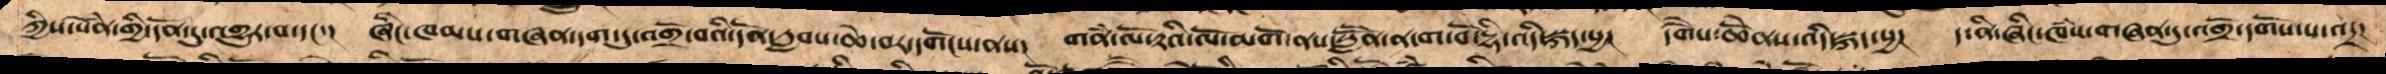ཀྱིས་སེནཾ་གྱི་དོན་དུ་འགྱུར་བ་དང་།   ཞིང་ཁམས་གཞན་དག་ཏུ་འགྲོ་བའི་དོན་རླབས་ཆེ་བར་དགོངས་ནས།  གནཾ་ལོ་རྟའི་ལོ་མགོ་ནས་སླཽན་ན་ག་བོ་ཌྷི་འདི་སྐད་སྱ།  དགཻས་ཆེནོས་འདི་སྐད་སྱ།   ད་ནི་ཞིང་ཁཾས་གཞན་དུ་འགྲོ་དགོས་པ་འདྲ།
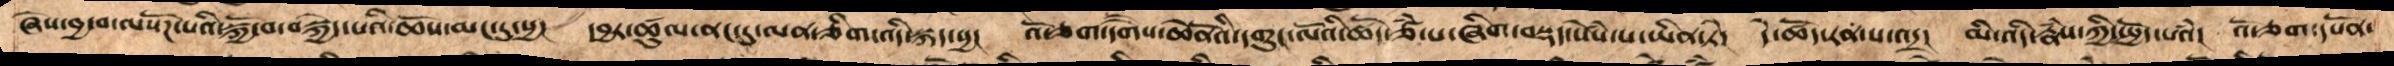ཞེས་བྱ་བ་ལསོཌ་པའི་སྐྱོ་བ་བསྐྱེད་པའི་ཆོས་མང་དུ་སྱ།   དབྱར་ཚུལ་ནང་དུ་ལན་ཅིག་འདི་སྐད་སྱ།   འོ་ཅག་དགཻས་ཆེནོའི་དགུང་ལོའི་ཚོད་ཙཾ་པ་ཞིག་བསྡད་སེསཾ་པ་ཡིན་ཏེ།  དེ་ཚོད་རན་པ་འདྲ།  མི་འདི་རྣཾས་ཀྱི་སྤྱོད་པའཾ།  འོ་ཅག་དཔོན་
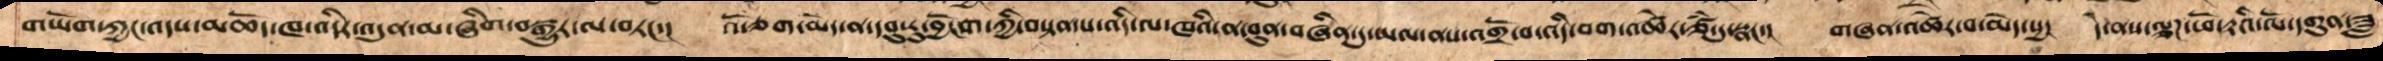གཡོག་ཀྱང་འདས་མཆོད་ཁ་འདིར་འདུན་མ་ཞིག་བསྒྱུར་ལ་བཏང་།   འོ་ཅག་མེད་ན་དབུ་རུ་བྱོངག་ཀྱི་བསྟན་པ་འདི་ལ་ཁའི་ན་བུན་བཞིན་དུ་ཡལ་ནས་འགྲོ་བ་འདི་ལ་བག་འཚེར་ཙཾ་དུ་སྣང་།    གཞན་འཚེར་བ་མེད་སྱ།   དེ་ནས་ལྕཌ་ཕོ་རྟའི་ལོ་དགུན་ཟླ
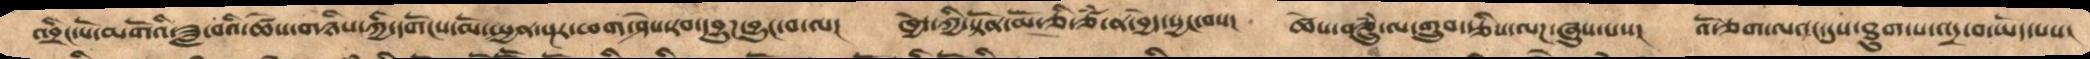འབྲིང་པོ་མགོའི་ཟླ་བའི་ཚེས་གཉིས་ཀྱི་དགོངས་མོ་སྤྱན་སྔར་ཕག་ཤེས་རབ་དབྱུཌ་བྱུང་བ་ལ།     ཁྱོད་ཀྱི་སྟོན་མོ་ཅི་ཙཾ་ན་བྱེད་སྱང་བས།   ཚེས་བཅྲུཾ་ལ་གྲུབ་རྩིས་ལཌ་ཞུས་པས།  འོ་ཅག་ལའང་དུས་ཐུག་པ་འདྲ་བ་ཡོད་པས།
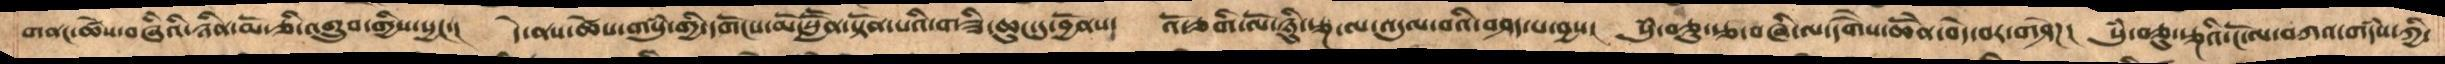གནང་ཚེས་བཞིའི་ཉིན་མོ་ཅི་འགྲུབ་གྱིས་སྱང་།  དེ་ནས་ཚེས་གསུཾ་གྱི་དགོངས་མོ་སླཽན་སྟོན་པའི་གཟི་ཆུང་དུ་བྱོནས།   འོ་ཅགི་ལོ་ཉིུ་རྩ་ལྔ་ལ་འདུལ་བའི་བཤད་པ་བྱས།   སུཾ་བཅུ་རྩ་བཞི་ལ་དགཻས་ཆེནོ་བདེ་བར་གཤེཌ།   སུཾ་བཅུ་རྩ་ལྔའི་ངོ་ལ་བཀའ་གདཾས་ཀྱི་
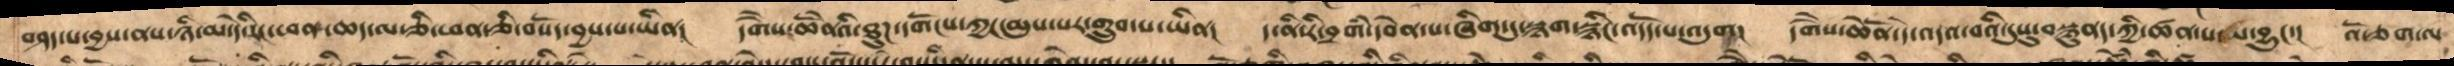བཤད་པ་བྱས་ནས་ཉི་མ་དེ་རིང་ཕན་ཆད་ལ་ཅི་ཕན་ཅི་བསོད་བྱས་པ་ཡིན།   དགཻས་ཆེནོའི་ཐུཌ་དགོངས་ཀྱང་མ་ལུས་པར་གྲུབ་་ཡིན།    ད་ནི་རི་བྲགཾ་དབེན་ས་ཞིག་དུ་སྙག་སྙིང་འདོད་པ་འདུག།   དགཻས་ཆེནོ་དེ་འདའ་བའི་དུསུ་བསྙུནད་ཀྱི་ཚན་པ་མ་བྱུང་།   འོ་ཅག་ལ
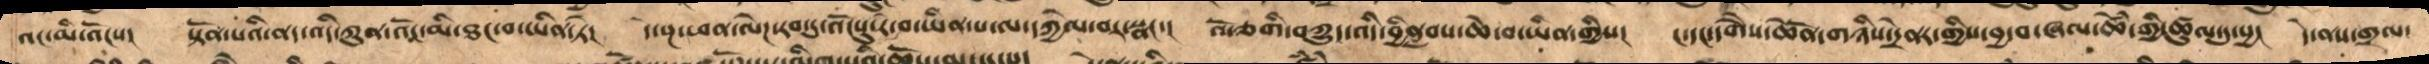འང་མི་འོངས།   སྟོན་པའི་ནད་འདི་ཀུན་འོང་མི་ཐང་བ་ཡིན་ཏེ།   དེ་སྔ་ཕན་ལེཌ་རབ་དུ་འོངསུ་རེ་བ་ཡིན་པ་ལ་དཀྱེལ་བར་སྣང་།    འོ་ཅགི་བཀྱུད་འདི་བྱིནླབས་ཆེ་བ་ཡིན་གྱིས།   ང་དང་དགཻས་ཆེནོ་གཉིས་དྲེནར་གྱིས་བྱ་བ་ཞལ་ཆེཾ་གྱི་ཚུལ་དུ་སྱ།  དེ་ནས་གྲལ་
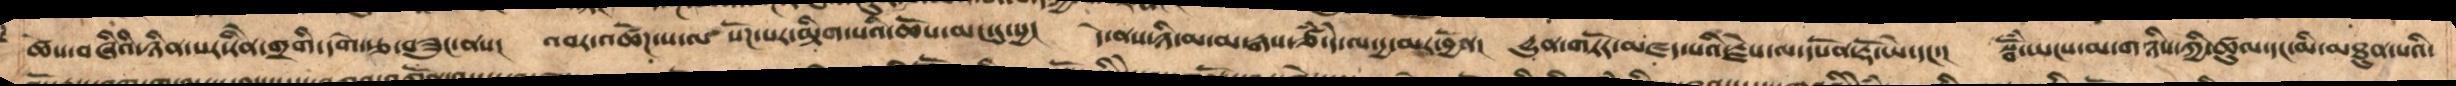ཚེས་བཞིའི་ཉིན་པར་རིནེ་གྲགི་དགེ་རྩ་བཟུང་ནས།   འབར་འཚོཌ་པ་ལསོཌ་པར་མྟིག་པའི་ཆོས་མང་དུ་སྱ།   དེ་ནས་ཉི་མ་མ་རྒས་ཙཾ་དེ་ལ་དྱ་མར་བྱོན།  དྱུན་གཏོར་མཛད་པའི་རྗེས་ལ་དཔོན་རྡོ་ཡེ་དང་།   སྦོཾ་ཡངས་མ་གཉིས་ཀྱིས་ཚུལ་དང་མི་མཐུན་པའི་
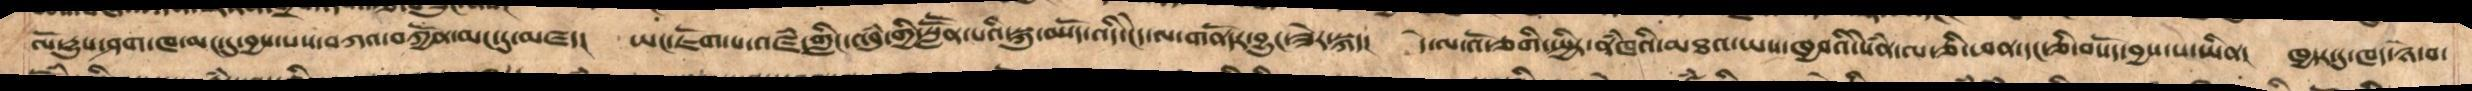ལོ་དྱུས་ཤག་ཁ་མང་དུ་བྱས་པས་བཀའ་བཀྱོན་མང་དུ་མཛད།   ཡང་ཇོག་པ་འཛཾ་གླིང་འབུཾ་གྱི་སླཽན་པའི་སྐུ་བསོད་འདི་ངེད་ལ་གནོདར་བྱུང་ཟེར་སྐད།   དེ་ལ་འོ་ཅགི་སྤྱིར་ནཾཁའི་མཐའ་ཡས་ཁྱབའི་སེནཾ་ལ་ཅི་ཕན་དང་ཅི་བསོད་བྱས་པ་ཡིན།   ཁྱདར་དུ་ཁད་ཉེ་བ་
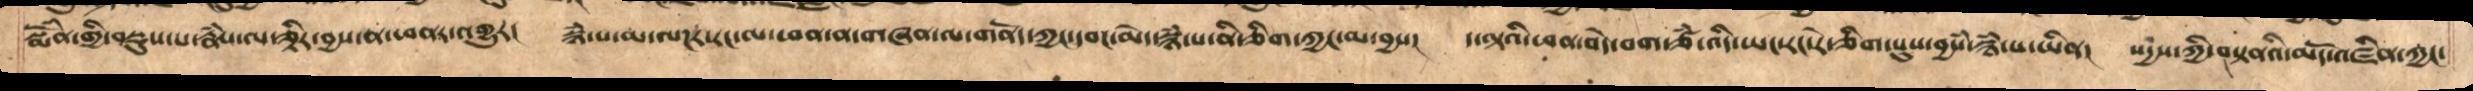སྨོཾན་གྱི་བསྡུས་པ་རྣཾས་ལ་ཅྟིར་བྱས་ན་ཕནར་འགྱུར།   སྙཾ་པ་མ་ལཌར་རང་ལ་ཕན་ན་གཞན་ལ་གནོད་ཀྱང་དབང་མེད་སྙཾ་པ་ནི་ཅིག་ཀྱང་མ་བྱས།  ད་ལྟའི་ཕན་བདེ་བག་ཙཾ་འདི་ཡང་རང་རེ་ཅིག་པུས་བྱསཾ་སྙཾ་པ་ཡིན།  སདྱས་ཀྱི་བསྟན་པའི་མདོ་འཛིན་ཀྱང་
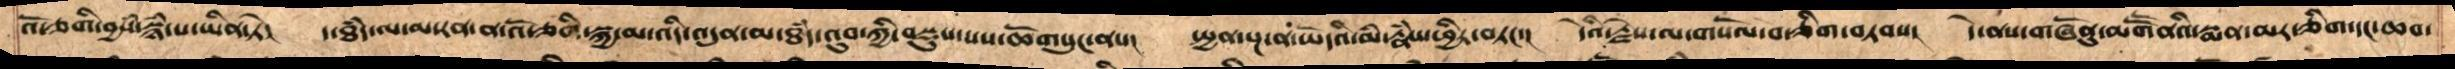འོ་ཅགི་བྱསཾ་སྙཾ་པ་ཡིན་ཏེ།   ད་ཐཾད་ལ་མ་རན་ན་འོ་ཅགི་སྐྱ་མ་འདི་འདུན་མ་ཐཾད་འུབ་ཀྱི་བསྡུས་པས་ཆོགསུངས་ནས།   སྤྱན་སྔ་ན་ཡོདའི་མི་རྣཾས་ཕྱིར་བཏང་།  དེའི་རྗེས་ལ་གསོལ་བ་ཅིག་བཏབས།  དེ་ནས་གཞོནུ་མགཽནའི་སྨན་མར་ཅིག་དང་ཆབ་
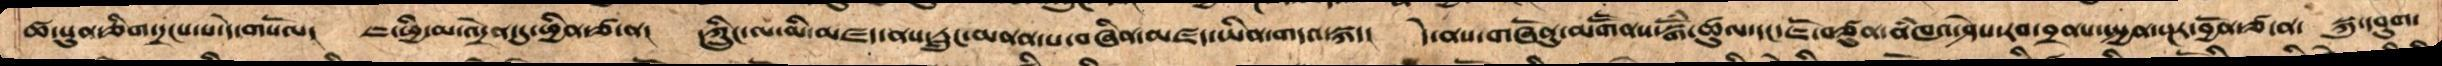ཚ་སུན་ཅིག་དྲངས་པ་དེ་གསོལ།   ཇ་ཕྱི་མ་འདྲེན་དུ་ཕྱིན་ཙ་ན།   དཀྲིུང་ལ་མི་མཛད་ནས་རླུང་མནན་པ་བཞིན་མཛད་ཡིན་གདའ་སྐད།    དེ་ནས་གཞོནུ་མགཽནས་སྒོཾ་ཚུལ་དང་ཇོ་བཙུན་ནཾཁའ་ཤེས་རབ་བྲནས་སྤྱན་སྔར་བྱོན་ཙ་ན་  སྐུ་དབུག་
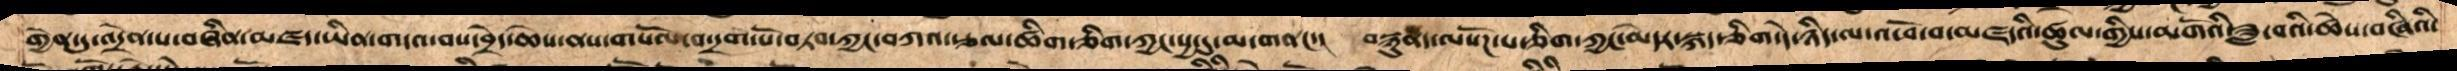གྱེན་དུ་འདྲེན་པ་བཞིན་མཛད་ཡིན་གདའ་བའི་བྲེད་ཆེས་ནས་གསོལ་བ་དྲག་པོ་བཏབ་ཀྱང་བཀའ་རྩལ་ཚིག་ཅིག་ཀྱང་སྱ་དུ་མ་གནང་།   བསྙུནད་ལསོཌ་པ་ཅིག་ཀྱང་མེདར་སྐད་ཅིག་དེ་ཉིད་ལ་འཕོ་བ་མཛདའི་ཚུལ་གྱིས་མགོའི་ཟླ་བའི་ཚེས་བཞིའི་
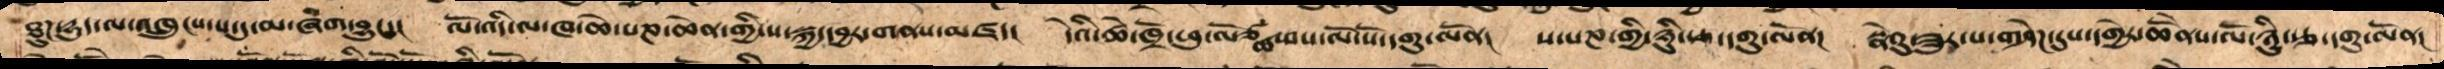ཐུཌ་དྱུད་ལ་འཁྲུངས་པ་དུ་མ་ཞིག་བྱུང༌།   ལོ་འདི་ལ་ཁ་ཆེ་པཎ་ཆེན་གྱི་ས་སྐྱ་དབྱར་གནས་མཛད།  དེའི་ཚེ་ཁྲོ་ཕུ་ལོཙྪ་བས་ལོ་སོ་དགུ་ལོན།   ས་པཎ་གྱི་ཉིུ་རྩ་དགུ་ལོན།   སྣེའུ་ཟུར་པ་གཤེཌ་དུས་དགྱེར་ཆེནོས་ལོ་ཉིུ་རྩ་དགུ་ལོན།
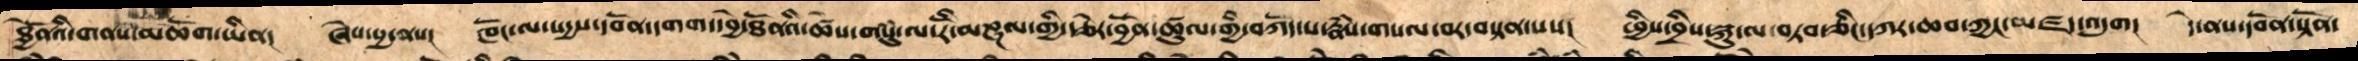ཐྱོེནའི་གནས་མཆོག་ཡིན།    ཞེས་སྱ་ནས།   ཁོང་ལ་སདྱས་དབོན་དགག་དབྱེ་ཐོནའི་ཚེས་གསུཾ་ལ་རོི་མཎྜལ་གྱི་རྩེར་བྱོན་ཚུལ་གྱི་བཀོད་པ་རྣཾས་གསལ་བར་བསྟན་པས།   ཕྱིས་བྲིས་སྐུ་ལ་བཏབ་ཅིང་དཀར་ཆབ་ཀྱང་མཛད་འདུག།    དེ་ནས་དབོན་སྟོན་
